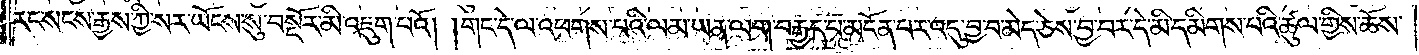རང་སངས་རྒྱས་ཀྱི་སར་ཡོངས་སུ་བསྔོར་མི་འཇུག་པའོ། །གང་དེ་ལ་འཕགས་པའི་ལམ་ཡན་ལག་བརྒྱད་པ་མངོན་པར་འདུ་བྱ་བ་མེད་ཅེས་བྱ་བར་དེ་མི་དམིགས་པའི་ཚུལ་གྱིས་ཆོས་
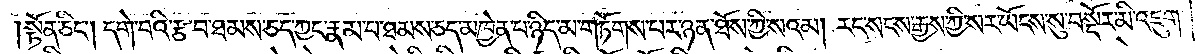སྟོན་ཅིང༌། དགེ་བའི་རྩ་བ་ཐམས་ཅད་ཀྱང་རྣམ་པ་ཐམས་ཅད་མཁྱེན་པ་ཉིད་མ་གཏོགས་པར་ཉན་ཐོས་ཀྱི་སའམ། རང་སངས་རྒྱས་ཀྱི་སར་ཡོངས་སུ་བསྔོར་མི་འཇུག་
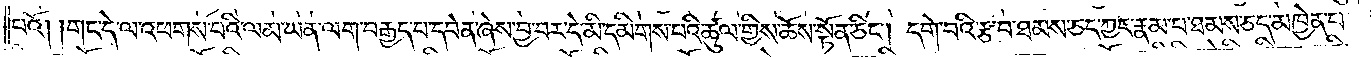པའོ། །གང་དེ་ལ་འཕགས་པའི་ལམ་ཡན་ལག་བརྒྱད་པ་དབེན་ཞེས་བྱ་བར་དེ་མི་དམིགས་པའི་ཚུལ་གྱིས་ཆོས་སྟོན་ཅིང༌། དགེ་བའི་རྩ་བ་ཐམས་ཅད་ཀྱང་རྣམ་པ་ཐམས་ཅད་མཁྱེན་པ་
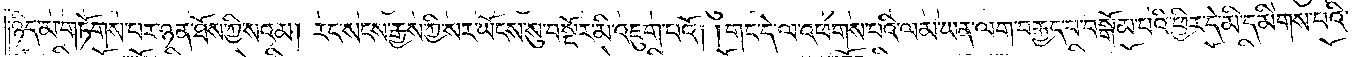ཉིད་མ་གཏོགས་པར་ཉན་ཐོས་ཀྱི་སའམ། རང་སངས་རྒྱས་ཀྱི་སར་ཡོངས་སུ་བསྔོར་མི་འཇུག་པའོ། །གང་དེ་ལ་འཕགས་པའི་ལམ་ཡན་ལག་བརྒྱད་པ་བསྒོམ་པའི་ཕྱིར་དེ་མི་དམིགས་པའི་
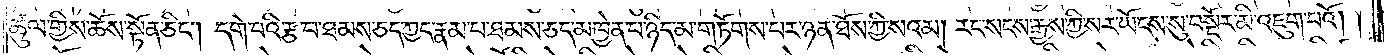ཚུལ་གྱིས་ཆོས་སྟོན་ཅིང༌། དགེ་བའི་རྩ་བ་ཐམས་ཅད་ཀྱང་རྣམ་པ་ཐམས་ཅད་མཁྱེན་པ་ཉིད་མ་གཏོགས་པར་ཉན་ཐོས་ཀྱི་སའམ། རང་སངས་རྒྱས་ཀྱི་སར་ཡོངས་སུ་བསྔོར་མི་འཇུག་པའོ། །
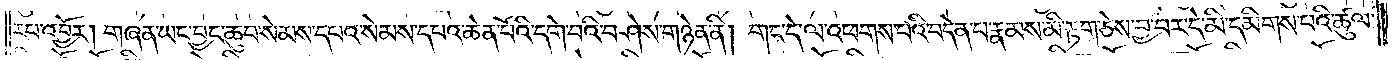རབ་འབྱོར། གཞན་ཡང་བྱང་ཆུབ་སེམས་དཔའ་སེམས་དཔའ་ཆེན་པོའི་དགེ་བའི་བཤེས་གཉེན་ནི། གང་དེ་ལ་འཕགས་པའི་བདེན་པ་རྣམས་མི་རྟག་ཅེས་བྱ་བར་དེ་མི་དམིགས་པའི་ཚུལ་
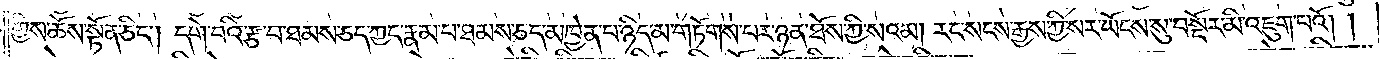གྱིས་ཆོས་སྟོན་ཅིང༌། དགེ་བའི་རྩ་བ་ཐམས་ཅད་ཀྱང་རྣམ་པ་ཐམས་ཅད་མཁྱེན་པ་ཉིད་མ་གཏོགས་པར་ཉན་ཐོས་ཀྱི་སའམ། རང་སངས་རྒྱས་ཀྱི་སར་ཡོངས་སུ་བསྔོར་མི་འཇུག་པའོ། །
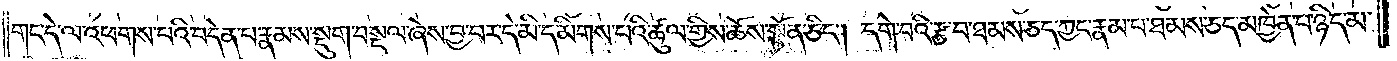གང་དེ་ལ་འཕགས་པའི་བདེན་པ་རྣམས་སྡུག་བསྔལ་ཞེས་བྱ་བར་དེ་མི་དམིགས་པའི་ཚུལ་གྱིས་ཆོས་སྟོན་ཅིང༌། དགེ་བའི་རྩ་བ་ཐམས་ཅད་ཀྱང་རྣམ་པ་ཐམས་ཅད་མཁྱེན་པ་ཉིད་མ་
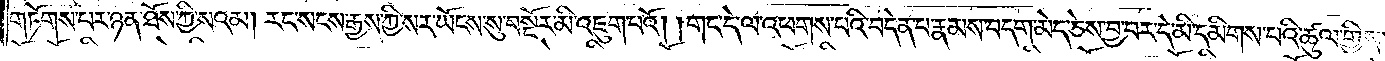གཏོགས་པར་ཉན་ཐོས་ཀྱི་སའམ། རང་སངས་རྒྱས་ཀྱི་སར་ཡོངས་སུ་བསྔོར་མི་འཇུག་པའོ། །གང་དེ་ལ་འཕགས་པའི་བདེན་པ་རྣམས་བདག་མེད་ཅེས་བྱ་བར་དེ་མི་དམིགས་པའི་ཚུལ་གྱིས་
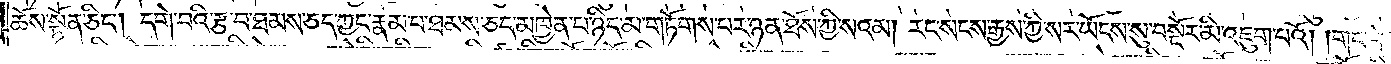ཆོས་སྟོན་ཅིང༌། དགེ་བའི་རྩ་བ་ཐམས་ཅད་ཀྱང་རྣམ་པ་ཐམས་ཅད་མཁྱེན་པ་ཉིད་མ་གཏོགས་པར་ཉན་ཐོས་ཀྱི་སའམ། རང་སངས་རྒྱས་ཀྱི་སར་ཡོངས་སུ་བསྔོར་མི་འཇུག་པའོ། །གང་དེ་ལ་
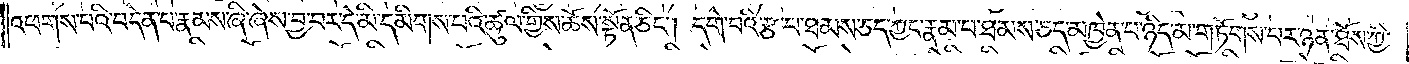འཕགས་པའི་བདེན་པ་རྣམས་ཞི་ཞེས་བྱ་བར་དེ་མི་དམིགས་པའི་ཚུལ་གྱིས་ཆོས་སྟོན་ཅིང༌། དགེ་བའི་རྩ་བ་ཐམས་ཅད་ཀྱང་རྣམ་པ་ཐམས་ཅད་མཁྱེན་པ་ཉིད་མ་གཏོགས་པར་ཉན་ཐོས་ཀྱི་
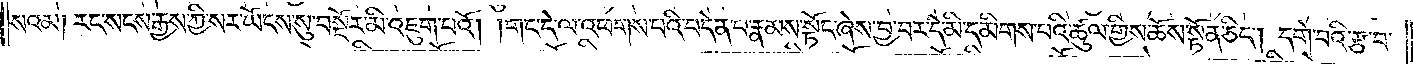སའམ། རང་སངས་རྒྱས་ཀྱི་སར་ཡོངས་སུ་བསྔོར་མི་འཇུག་པའོ། །གང་དེ་ལ་འཕགས་པའི་བདེན་པ་རྣམས་སྟོང་ཞེས་བྱ་བར་དེ་མི་དམིགས་པའི་ཚུལ་གྱིས་ཆོས་སྟོན་ཅིང༌། དགེ་བའི་རྩ་བ་
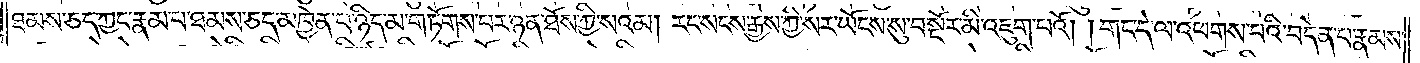ཐམས་ཅད་ཀྱང་རྣམ་པ་ཐམས་ཅད་མཁྱེན་པ་ཉིད་མ་གཏོགས་པར་ཉན་ཐོས་ཀྱི་སའམ། རང་སངས་རྒྱས་ཀྱི་སར་ཡོངས་སུ་བསྔོར་མི་འཇུག་པའོ། །གང་དེ་ལ་འཕགས་པའི་བདེན་པ་རྣམས་
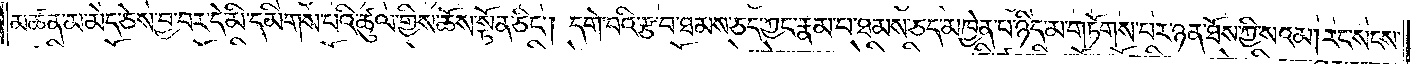མཚན་མ་མེད་ཅེས་བྱ་བར་དེ་མི་དམིགས་པའི་ཚུལ་གྱིས་ཆོས་སྟོན་ཅིང༌། དགེ་བའི་རྩ་བ་ཐམས་ཅད་ཀྱང་རྣམ་པ་ཐམས་ཅད་མཁྱེན་པ་ཉིད་མ་གཏོགས་པར་ཉན་ཐོས་ཀྱི་སའམ། རང་སངས་
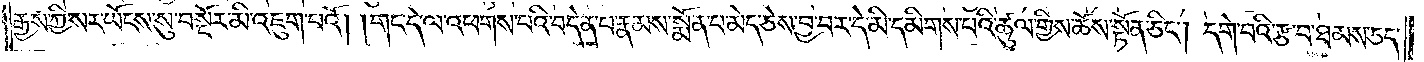རྒྱས་ཀྱི་སར་ཡོངས་སུ་བསྔོར་མི་འཇུག་པའོ། །གང་དེ་ལ་འཕགས་པའི་བདེན་པ་རྣམས་སྨོན་པ་མེད་ཅེས་བྱ་བར་དེ་མི་དམིགས་པའི་ཚུལ་གྱིས་ཆོས་སྟོན་ཅིང༌། དགེ་བའི་རྩ་བ་ཐམས་ཅད་
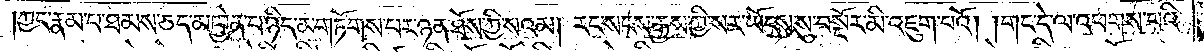ཀྱང་རྣམ་པ་ཐམས་ཅད་མཁྱེན་པ་ཉིད་མ་གཏོགས་པར་ཉན་ཐོས་ཀྱི་སའམ། རང་སངས་རྒྱས་ཀྱི་སར་ཡོངས་སུ་བསྔོར་མི་འཇུག་པའོ། །གང་དེ་ལ་འཕགས་པའི་
